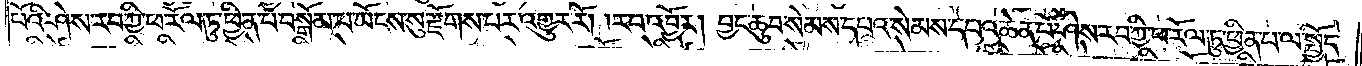པོའི་ཤེས་རབ་ཀྱི་ཕ་རོལ་ཏུ་ཕྱིན་པ་བསྒོམ་པ་ཡོངས་སུ་རྫོགས་པར་འགྱུར་རོ། །རབ་འབྱོར། བྱང་ཆུབ་སེམས་དཔའ་སེམས་དཔའ་ཆེན་པོ་ཤེས་རབ་ཀྱི་ཕ་རོལ་ཏུ་ཕྱིན་པ་ལ་སྤྱོད་
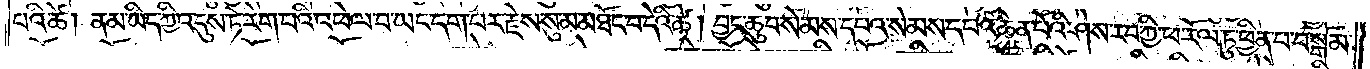པའི་ཚེ། ནམ་ཡིད་ཀྱི་འདུས་ཏེ་རེག་པའི་འཕེལ་བ་ཡང་དག་པར་རྗེས་སུ་མ་མཐོང་བ་དེའི་ཚེ། བྱང་ཆུབ་སེམས་དཔའ་སེམས་དཔའ་ཆེན་པོའི་ཤེས་རབ་ཀྱི་ཕ་རོལ་ཏུ་ཕྱིན་པ་བསྒོམ་
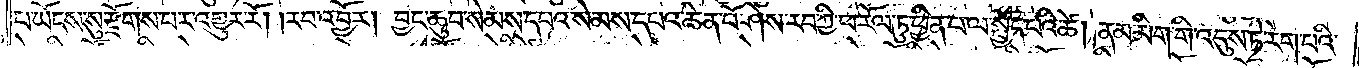པ་ཡོངས་སུ་རྫོགས་པར་འགྱུར་རོ། །རབ་འབྱོར། བྱང་ཆུབ་སེམས་དཔའ་སེམས་དཔའ་ཆེན་པོ་ཤེས་རབ་ཀྱི་ཕ་རོལ་ཏུ་ཕྱིན་པ་ལ་སྤྱོད་པའི་ཚེ། ནམ་མིག་གི་འདུས་ཏེ་རེག་པའི་
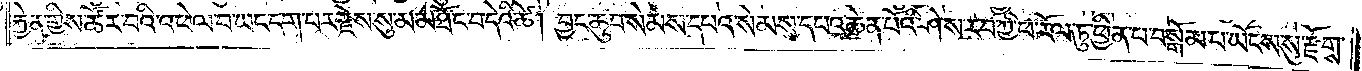རྐྱེན་གྱིས་ཚོར་བའི་འཕེལ་བ་ཡང་དག་པར་རྗེས་སུ་མ་མཐོང་བ་དེའི་ཚེ། བྱང་ཆུབ་སེམས་དཔའ་སེམས་དཔའ་ཆེན་པོའི་ཤེས་རབ་ཀྱི་ཕ་རོལ་ཏུ་ཕྱིན་པ་བསྒོམ་པ་ཡོངས་སུ་རྫོགས་
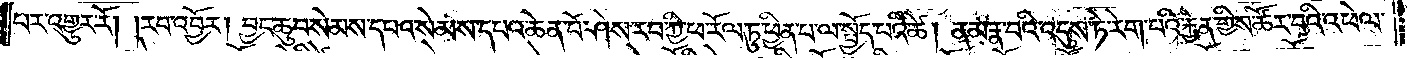པར་འགྱུར་རོ། །རབ་འབྱོར། བྱང་ཆུབ་སེམས་དཔའ་སེམས་དཔའ་ཆེན་པོ་ཤེས་རབ་ཀྱི་ཕ་རོལ་ཏུ་ཕྱིན་པ་ལ་སྤྱོད་པའི་ཚེ། ནམ་རྣ་བའི་འདུས་ཏེ་རེག་པའི་རྐྱེན་གྱིས་ཚོར་བའི་འཕེལ་
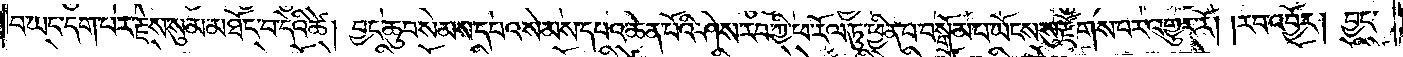བ་ཡང་དག་པར་རྗེས་སུ་མ་མཐོང་བ་དེའི་ཚེ། བྱང་ཆུབ་སེམས་དཔའ་སེམས་དཔའ་ཆེན་པོའི་ཤེས་རབ་ཀྱི་ཕ་རོལ་ཏུ་ཕྱིན་པ་བསྒོམ་པ་ཡོངས་སུ་རྫོགས་པར་འགྱུར་རོ། །རབ་འབྱོར། བྱང་
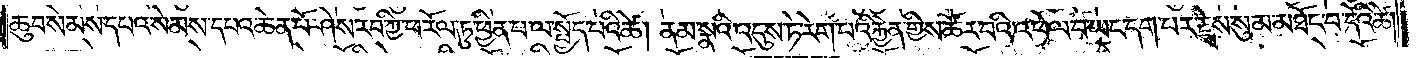ཆུབ་སེམས་དཔའ་སེམས་དཔའ་ཆེན་པོ་ཤེས་རབ་ཀྱི་ཕ་རོལ་ཏུ་ཕྱིན་པ་ལ་སྤྱོད་པའི་ཚེ། ནམ་སྣའི་འདུས་ཏེ་རེག་པའི་རྐྱེན་གྱིས་ཚོར་བའི་འཕེལ་བ་ཡང་དག་པར་རྗེས་སུ་མ་མཐོང་བ་དེའི་ཚེ།
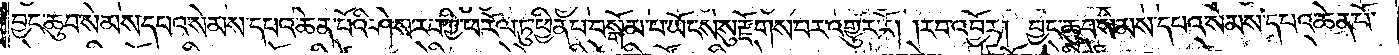བྱང་ཆུབ་སེམས་དཔའ་སེམས་དཔའ་ཆེན་པོའི་ཤེས་རབ་ཀྱི་ཕ་རོལ་ཏུ་ཕྱིན་པ་བསྒོམ་པ་ཡོངས་སུ་རྫོགས་པར་འགྱུར་རོ། །རབ་འབྱོར། བྱང་ཆུབ་སེམས་དཔའ་སེམས་དཔའ་ཆེན་པོ་
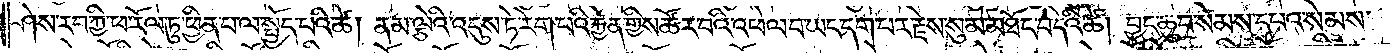ཤེས་རབ་ཀྱི་ཕ་རོལ་ཏུ་ཕྱིན་པ་ལ་སྤྱོད་པའི་ཚེ། ནམ་ལྕེའི་འདུས་ཏེ་རེག་པའི་རྐྱེན་གྱིས་ཚོར་བའི་འཕེལ་བ་ཡང་དག་པར་རྗེས་སུ་མ་མཐོང་བ་དེའི་ཚེ། བྱང་ཆུབ་སེམས་དཔའ་སེམས་
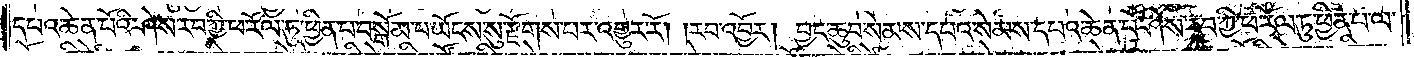དཔའ་ཆེན་པོའི་ཤེས་རབ་ཀྱི་ཕ་རོལ་ཏུ་ཕྱིན་པ་བསྒོམ་པ་ཡོངས་སུ་རྫོགས་པར་འགྱུར་རོ། །རབ་འབྱོར། བྱང་ཆུབ་སེམས་དཔའ་སེམས་དཔའ་ཆེན་པོ་ཤེས་རབ་ཀྱི་ཕ་རོལ་ཏུ་ཕྱིན་པ་ལ་
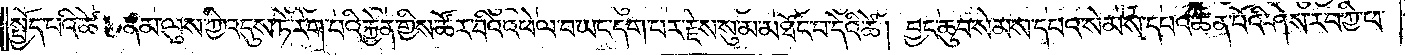སྤྱོད་པའི་ཚེ། ནམ་ལུས་ཀྱི་འདུས་ཏེ་རེག་པའི་རྐྱེན་གྱིས་ཚོར་བའི་འཕེལ་བ་ཡང་དག་པར་རྗེས་སུ་མ་མཐོང་བ་དེའི་ཚེ། བྱང་ཆུབ་སེམས་དཔའ་སེམས་དཔའ་ཆེན་པོའི་ཤེས་རབ་ཀྱི་ཕ་
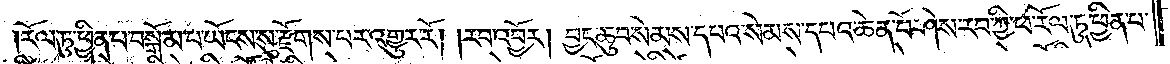རོལ་ཏུ་ཕྱིན་པ་བསྒོམ་པ་ཡོངས་སུ་རྫོགས་པར་འགྱུར་རོ། །རབ་འབྱོར། བྱང་ཆུབ་སེམས་དཔའ་སེམས་དཔའ་ཆེན་པོ་ཤེས་རབ་ཀྱི་ཕ་རོལ་ཏུ་ཕྱིན་པ་
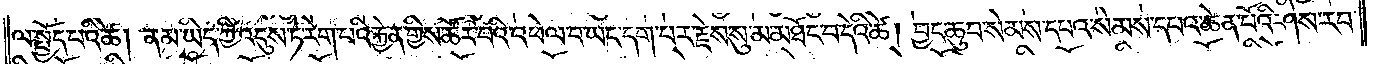ལ་སྤྱོད་པའི་ཚེ། ནམ་ཡིད་ཀྱི་འདུས་ཏེ་རེག་པའི་རྐྱེན་གྱིས་ཚོར་བའི་འཕེལ་བ་ཡང་དག་པར་རྗེས་སུ་མ་མཐོང་བ་དེའི་ཚེ། བྱང་ཆུབ་སེམས་དཔའ་སེམས་དཔའ་ཆེན་པོའི་ཤེས་རབ་
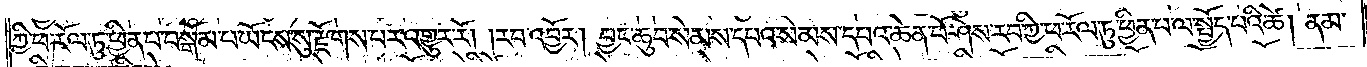ཀྱི་ཕ་རོལ་ཏུ་ཕྱིན་པ་བསྒོམ་པ་ཡོངས་སུ་རྫོགས་པར་འགྱུར་རོ། །རབ་འབྱོར། བྱང་ཆུབ་སེམས་དཔའ་སེམས་དཔའ་ཆེན་པོ་ཤེས་རབ་ཀྱི་ཕ་རོལ་ཏུ་ཕྱིན་པ་ལ་སྤྱོད་པའི་ཚེ། ནམ་
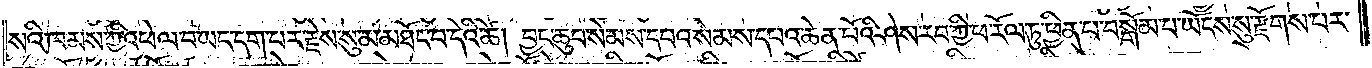སའི་ཁམས་ཀྱི་འཕེལ་བ་ཡང་དག་པར་རྗེས་སུ་མ་མཐོང་བ་དེའི་ཚེ། བྱང་ཆུབ་སེམས་དཔའ་སེམས་དཔའ་ཆེན་པོའི་ཤེས་རབ་ཀྱི་ཕ་རོལ་ཏུ་ཕྱིན་པ་བསྒོམ་པ་ཡོངས་སུ་རྫོགས་པར་
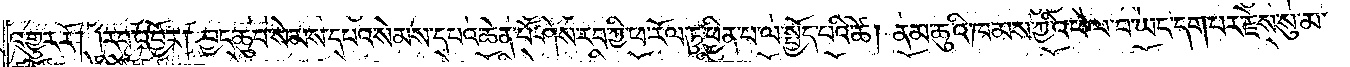འགྱུར་རོ། །རབ་འབྱོར། བྱང་ཆུབ་སེམས་དཔའ་སེམས་དཔའ་ཆེན་པོ་ཤེས་རབ་ཀྱི་ཕ་རོལ་ཏུ་ཕྱིན་པ་ལ་སྤྱོད་པའི་ཚེ། ནམ་ཆུའི་ཁམས་ཀྱི་འཕེལ་བ་ཡང་དག་པར་རྗེས་སུ་མ་
